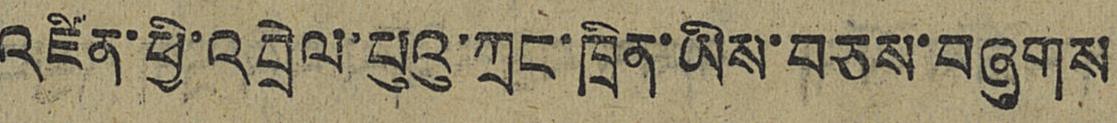འཛིན་ཕྱི་འབྲེལ་པུའུ་ཀྲང་ཁྲིན་ཡིས་བཅས་བཞུགས
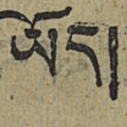ཡོད།
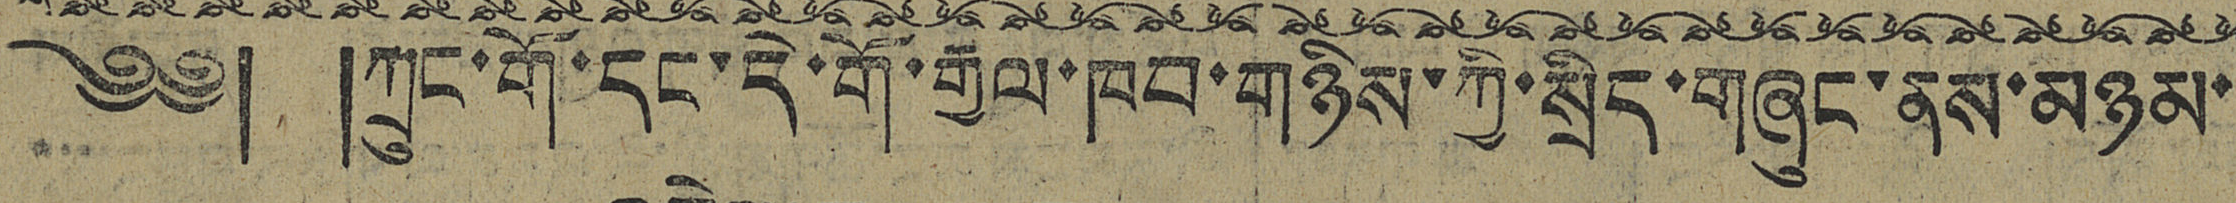༄༅། །ཀྲུང་གོ་དང་དེ་གོ་རྒྱལ་ཁབ་གཉིས་ཀྱི་སྲིད་གཞུང་ནས་མཉམ་
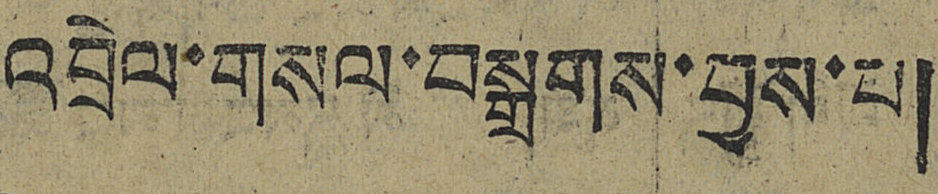འབྲེལ་གསལ་བསྒྲགས་བྱས་པ།
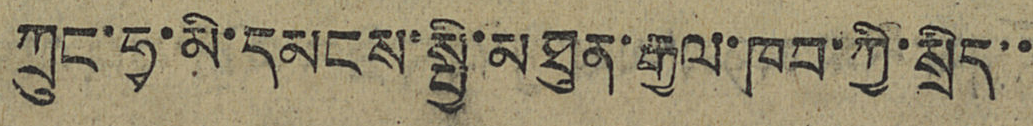ཀྲུང་ཧྭ་མི་དམངས་སྤྱི་མཐུན་རྒྱལ་ཁབ་ཀྱི་སྲིད་་
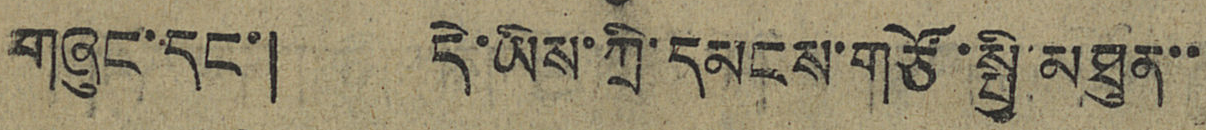གཞུང་དང་། དེ་ཡིས་ཀྲི་དམངས་གཙོ་སྤྱི་མཐུན་་
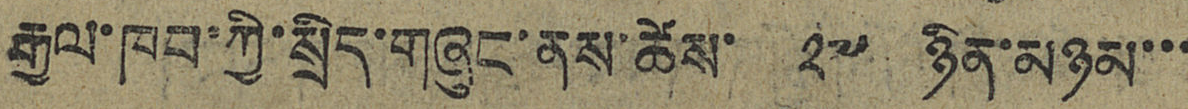རྒྱལ་ཁབ་ཀྱི་སྲིད་གཞུང་ནས་ཚེས་ ༢༧ ཉིན་མཉམ་་་
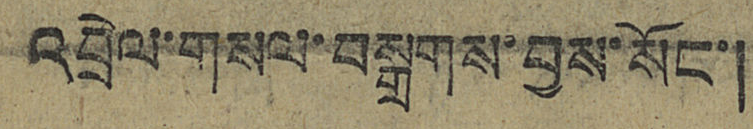འབྲེལ་གསལ་བསྒྲགས་བྱས་སོང་།
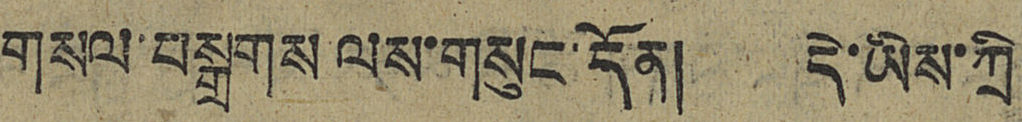གསལ་བསྒྲགས ལས་གསུང་དོན། དེ་ཡིས་ཀྲི
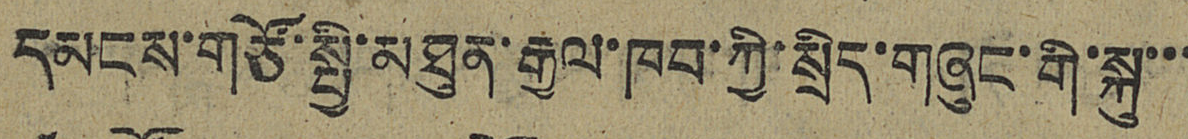དམངས་གཙོ་སྤྱི་མཐུན་རྒྱལ་ཁབ་ཀྱི་སྲིད་གཞུང་གི་སྐུ་་་
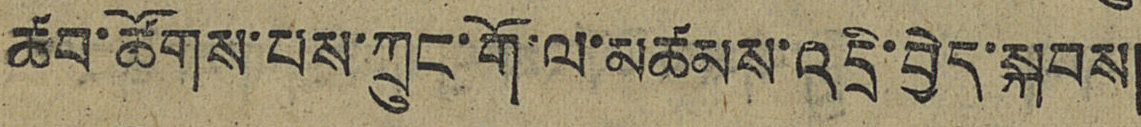ཚབ་ཚོགས་པས་ཀྲུང་གོ་ལ་མཚམས་འདྲི་བྱེད་སྐབས།
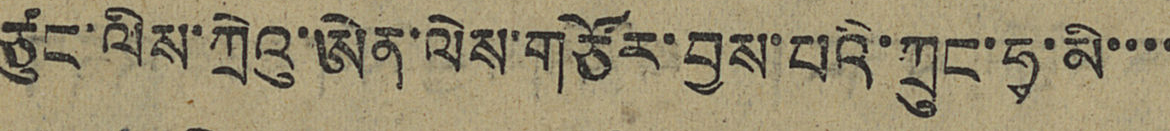ཙུང་ལིས་ཀྲུའུ་ཨེན་ལེས་གཙོར་བྱས་པའི་ཀྲུང་ཧྭ་མི་་་་
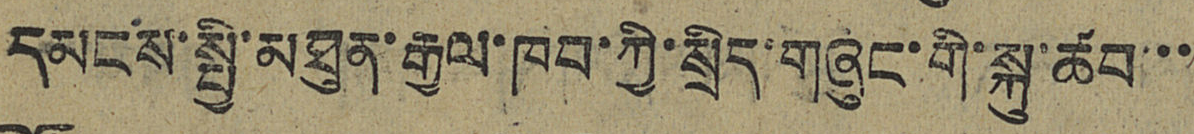དམངས་སྤྱི་མཐུན་རྒྱལ་ཁབ་ཀྱི་སྲིད་གཞུང་གི་སྐུ་ཚབ་་
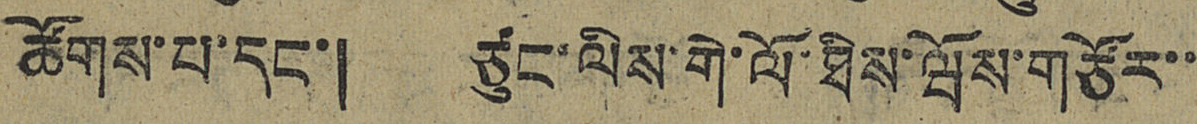ཚོགས་པ་དང་། ཙུང་ལིས་གེ་ལོ་ཐིས་ཝོས་གཙོར་་
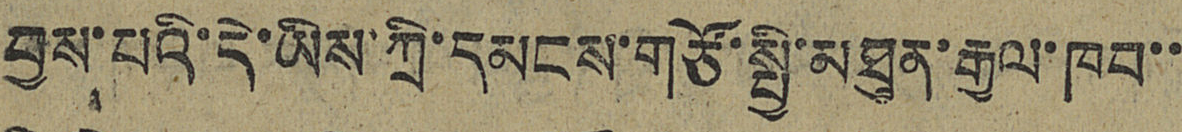བྱས་པའི་དེ་ཡིས་ཀྲི་དམངས་གཙོ་སྤྱི་མཐུན་རྒྱལ་ཁབ་་
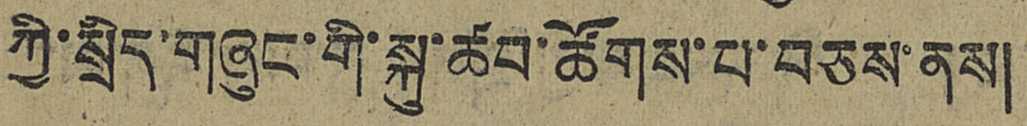ཀྱི་སྲིད་གཞུང་གི་སྐུ་ཚབ་ཚོགས་པ་བཅས་ནས།
